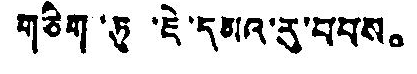གཅིག་ཏུ་ཇེ་དམའ་རུ་བབས。
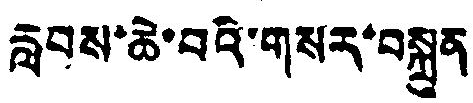རླབས་ཆེ་བའི་གསར་བསྐྲུན
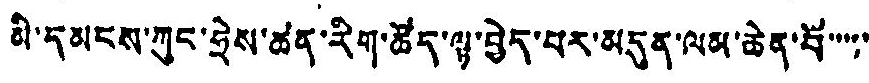མི་དམངས་ཀུང་ཧྲེས་ཚན་རིག་ཚོད་ལྟ་བྱེད་པར་མདུན་ལམ་ཆེན་པོ་་་་་་་
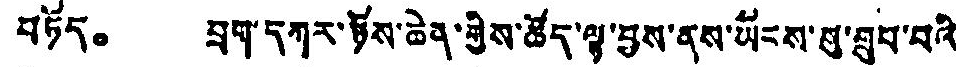བཏོད。 བྲག་དཀར་ཉོས་ཆེན་གྱིས་ཚོད་ལྟ་བྱས་ནས་ཡོངས་སུ་གྲུབ་པའི་
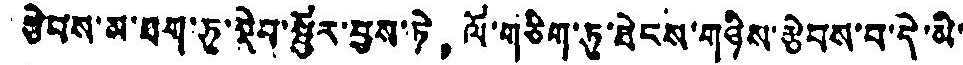རྩེབས་མ་ཐག་ཏུ་སྡེབ་སྦྱོར་བྱས་ཏེ， ལོ་གཅིག་ཏུ་ཐེངས་གཉིས་རྩེབས་པ་དེ་མི་
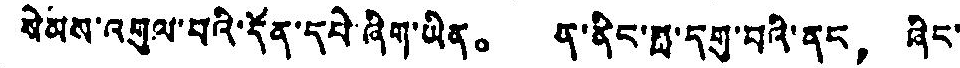སེམས་འགུལ་བའི་དོན་དཔེ་ཞིག་ཡིན。 ན་ནིང་ཟླ་དགུ་བའི་ནང， ཞིང་
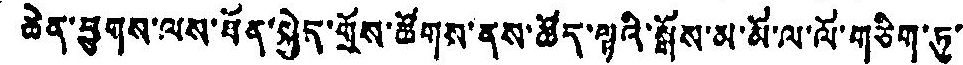ཆེན་ཕྱུགས་ལས་ཐོན་སྐྱེད་གྲོས་ཚོགས་ནས་ཚོད་ལྟའི་སྒོས་མ་མོ་ལ་ལོ་གཅིག་ཏུ་་་
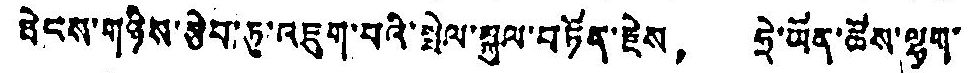ཐེངས་གཉིས་ཅེག་ཏུ་འཇུག་པའི་སྤེལ་སྐུལ་བཏོན་རྗེས， ཧྲེ་ཡོན་ཚོས་ལྷག་
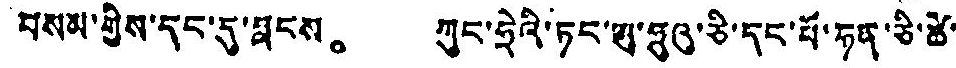བསམ་གྱིས་དང་དུ་བླངས。 ཀུང་ཧྲེའི་ཏང་ཨུ་ཧྲུའུ་ཅི་དང་པོ་ཧན་ཅི་ཚེ་
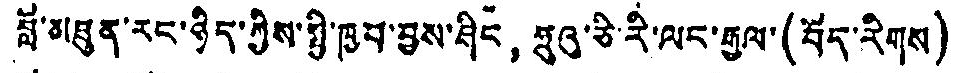བློ་མཐུན་རང་ཉིད་ཀྱིས་སྤྱི་ཁྱབ་བྱས་ཤིང， ཧྲུའུ་ཅི་རི་ལང་རྒྱལ་(བོད་རིགས)
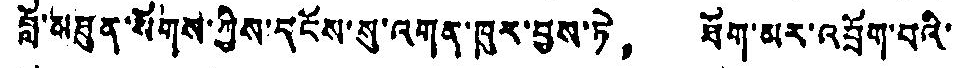བློ་མཐུན་སོགས་ཀྱིས་དངོས་སུ་འགན་ཁུར་བྱས་ཏེ， ཐོག་མར་འབྲོག་པའི་
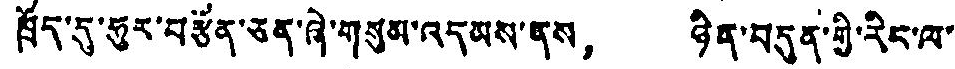ཁྲོད་དུ་ཧུར་བརྩོན་ཅན་ཞེ་གསུམ་འདམས་ནས， ཉིན་བདུན་གྱི་རིང་ལ་
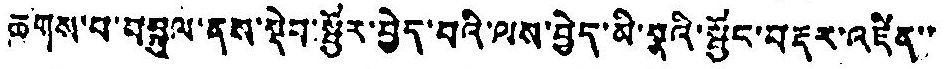ཆགས་པ་བསྐྱལ་ནས་སྡེབ་སྦྱོར་བྱེད་པའི་ལས་བྱེད་མི་སྣའི་སྦྱོང་བརྡར་འཛིན་་་
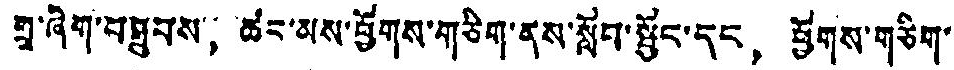གྲྭ་ཞིག་བསྒྲུབས， ཚང་མས་ཕྱོགས་གཅིག་ནས་སློབ་སྦྱོང་དང， ཕྱོགས་གཅིག་
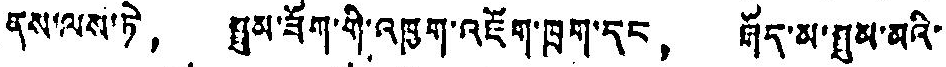ནས་ལས་ཏེ， སྤུམ་ཟོག་གི་འཁྱུག་འཇོག་ཁྲག་དང， རྒོད་མ་སུམ་མའི་
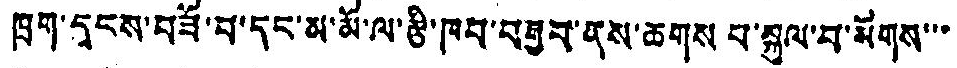ཁྲག་དྭངས་བཟོ་བ་དང་མ་མོ་ལ་རྩི་ཁབ་བརྒྱབ་ནས་ཆགས པ་སྐུལ་བ་སོགས་་་
